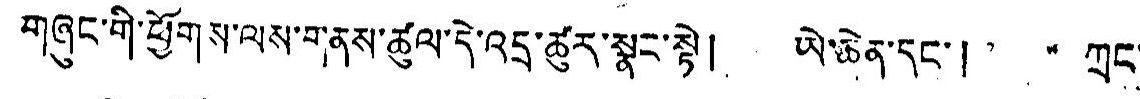གཞུང་གི་ཕྱོགས་ལས་གནས་ཚུལ་དེ་འདྲ་ཚུར་སྣང་སྟེ། ཡེ་ཆེན་དང་། ཀྲང་
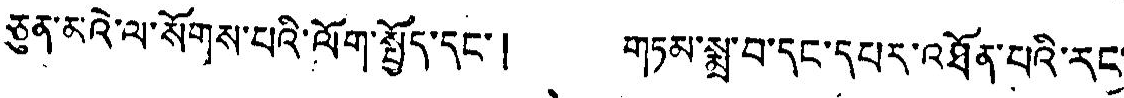ཅུན་མའེ་ལ་སོགས་པའི་ལོག་སྤྱོད་དང་། གཏམ་སྨྲ་བ་དང་དཔར་འཐོན་པའི་རང་
